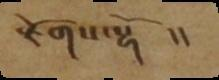རྫོགས་སྷོ  །།
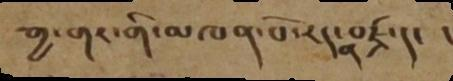རྒྱ་གར་གི་མཁན་པོ་རདན་བཛྲ་དང །
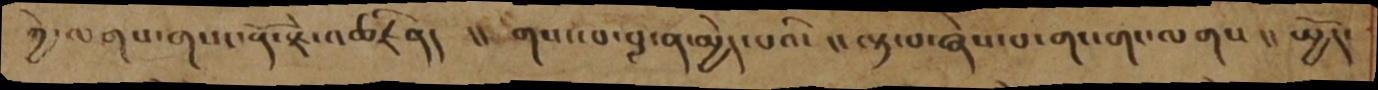ཀྱེ་ལགས་གསང་རྡོ་རྗེ་འཚིརནད  །། གསང་པ་བླ་ན་མྱེད་པའི་ །།  ལྟ་བ་ཞེས་པ་གང་གང་ལགས །། སྤྱོད་
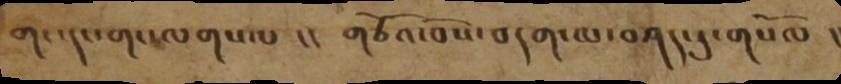གང་དང་གང་ལགས་པ །།  གཙོའ་བོས་བདག་ལ་བཤད་དུ་གསོལ །།
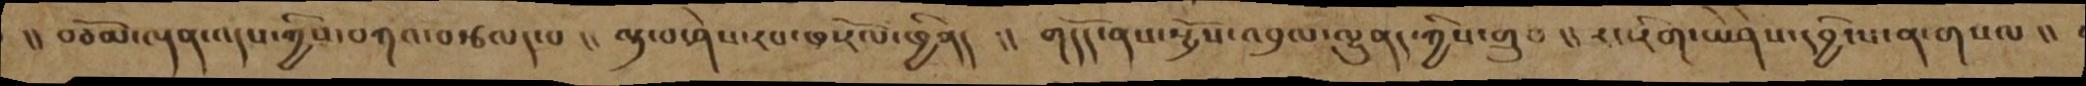།།   བཅོམ་ལྡན་འདས་ཀྱིས་བཀའ་བརྩལད་པ །། ལྟ་བ་ཤེས་རབ་ཕ་རོལ་ཕྱིནད  །། གདོད་ནས་སྤྲོས་འབྲལ་ལྷུནད་ཀྱིས་གྲུབ  །།  རང་རིག་ཡེ་ཤེས་དབྱིངས་ན་གསལ །།
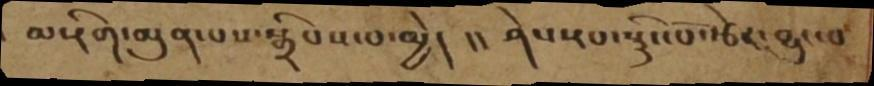མ་རིག་མུན་པས་སྒྲིབས་པ་མྱེད  །། ཤེས་རབ་སྙིང་པོ་རྩེར་བྱུང་བ
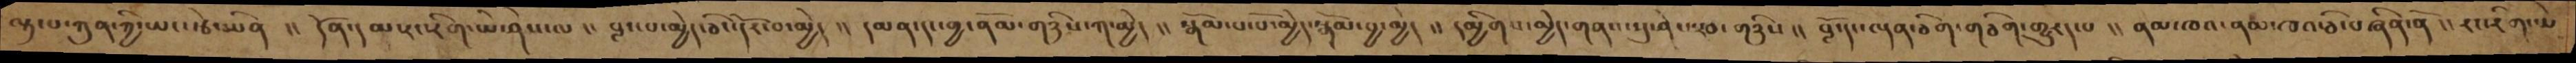ལྟ་བ་ཀུན་ཀྱི་ཡང་རྩེ་ཡིན  །། དོན་དམ་རང་རིག་ཡེ་ཤེས་ལ །། བླང་པ་མྱེད་ཅིང་དོར་བ་མྱེད །། དམན་དང་གྱ་ནོམ་གཉིས་ཀ་མྱེད །། སྒོམ་པ་པོ་མྱེད་བསྒོམ་བྱ་མྱེད །། དམྱིགས་མྱེད་གནས་སུ་ཤེས་རབ་གཉིས །། བློ་དང་ལྷན་ཅིག་གཅིག་གྱུརད་པ །། ནམ་ཁའ་ནམ་ཁའ་ཅི་བཞིན་ནོ །། རང་རིག་ཡེ
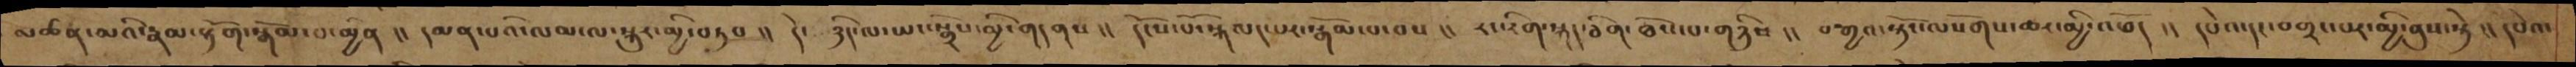མཚན་མའི་རྣམ་རྟོག་སྒོམ་པ་མྱིན །། དམན་པའི་ལམ་ལ་སྐུར་མྱི་བཏབ།། དེ་ ཉིད་ལ་ཡང་སྒྲོས་མྱི་གདནས །། དངོས་པོ་སྐལད་པར་སྒོམ་པ་བས །། རང་རིག་སྐད་ཅིག་ཐོས་པ་གཉིས །། བརྒྱའ་སྟོང་ལསོགས་ཆར་མྱི་འཕོད །། དཔེའ་དང་བགྲང་པར་མྱི་ནུས་སྟེ །། དཔེའ་
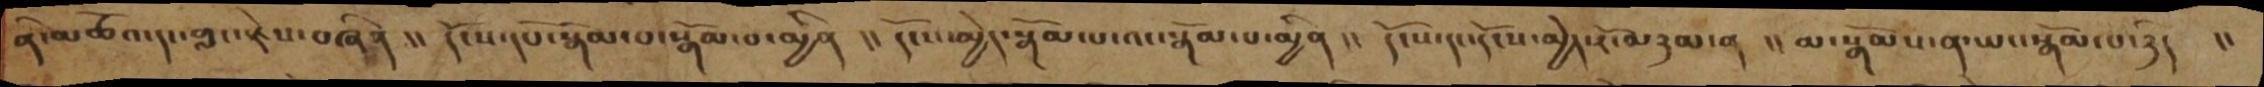ནི་མཚོའ་དང་གླང་རྗེས་བཞིན  །། དངོས་དཔེ་སྒོམ་པ་སྒོམ་པ་མྱིན  །། དངོས་མྱེད་སྒོམ་པ་འང་སྒོམ་པ་མྱིན  །། དངོས་དང་དངོས་མྱེད་རོ་མཉམ་ན  །། མ་སྒོམས་པ་ན་ཡང་སྒོམ་པ་ཉིད  །།
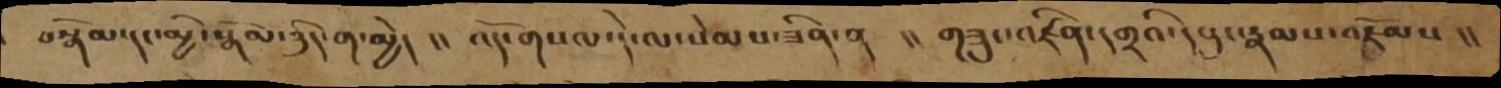བསྒོམ་དང་མྱི་སྒོམ་ཉིད་ན་མྱེད  །། འོད་གསལ་དེ་ལ་སེམས་ཟིན་ན  །།  གཟུང་འཛིན་དགྲའི་དཔུང་རྣམས་འཇོམས  །།
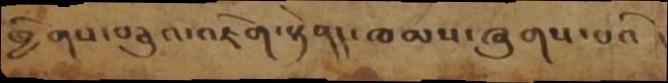ཕྱོགས་བཅུའ་འཇིག་རྟེནད་ཁམས་ཞུགས་པའི  །
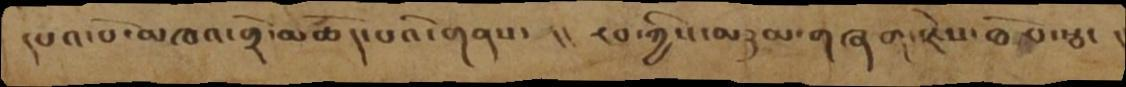དཔའ་བོ་མཁའ་གྲོ་མཆོད་པའི་གནས་ །།   རབ་ཀྱིས་མཉམ་གཞག་རྗེས་ཐོབ་རྩང  །
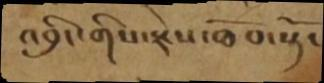འབྲིང་གིས་རྗེས་ཐོབ་སྟོང
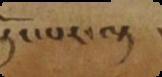ཏོང་པར་ལྟ    །
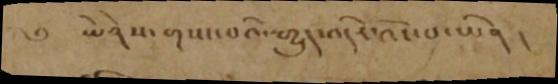༄   ཡེཤེས་གསང་བའི་རྒྱུད་འདིར་འོང་བ་ཡིན །
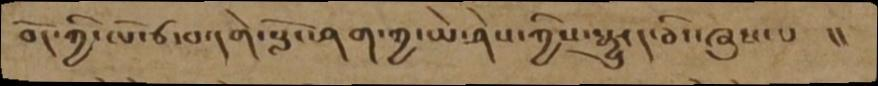བོད་ཀྱི་ལོ་ཙ་བ་དགེ་སློང་ཤག་ཀྱ་ཡེ་ཤེས་ཀྱིས་སྒྱུརད་ཅིང་ཞུས་པ  །།
